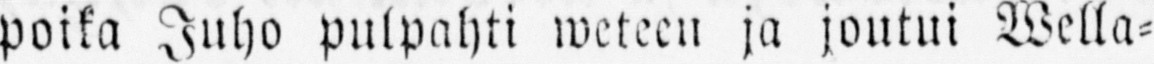poika Juho pulpahti weteen ja joutui Wella-
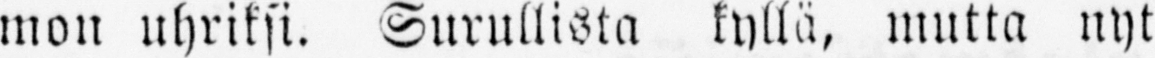mon uhriksi. Surullista kyllä, mutta nyt
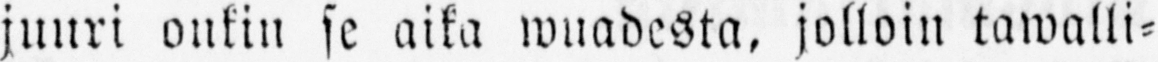juuri onkin se aika wuadesta, jolloin tawalli-
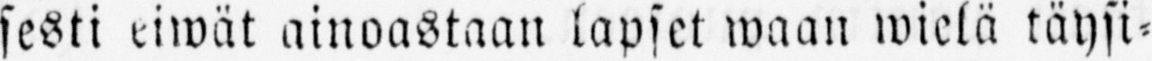sesti eiwät ainoastaan lapset waan wielä täysi-
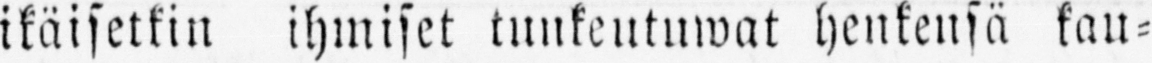ikäisetkin ihmiset tunkeutuwat henkensä kau-
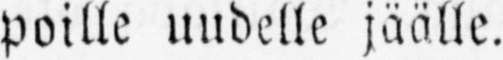poille uudelle jäälle.
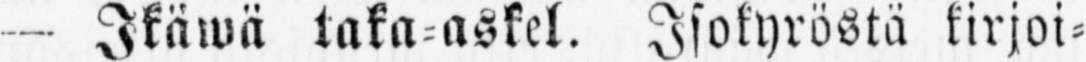— Ikäwä taka-askel. Isokyröstä kirjoi-
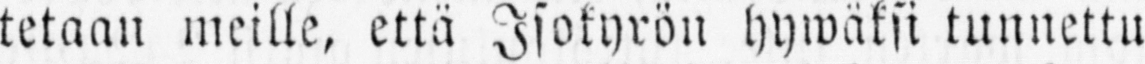tetaan meille, että Isokyrön hywäksi tunnettu
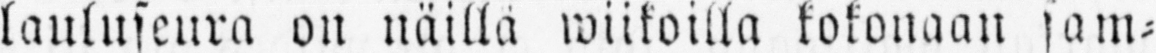lauluseura on näillä wiikoilla kokonaan sam-
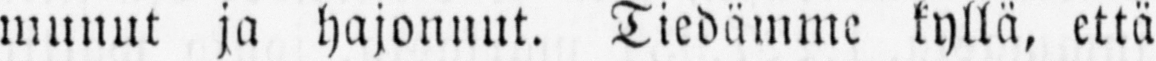munut ja hajonnut. Tiedämme kyllä, että
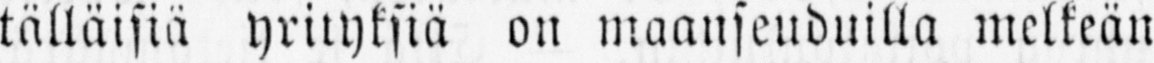tälläisiä yrityksiä on maanseuduilla melkeän
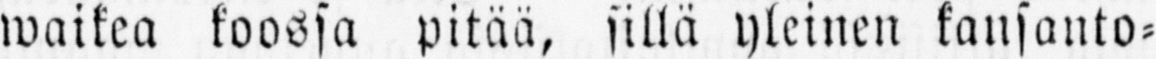waikea koossa pitää, sillä yleinen kansanto-
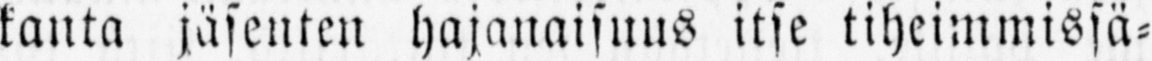kanta jäsenten hajanaisuus itse tiheimmissä-
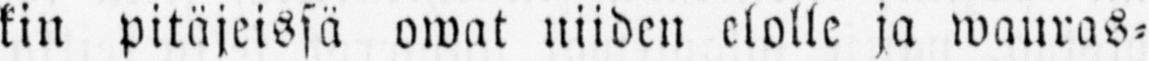kin pitäjeissä owat niiden elolle ja wauras-
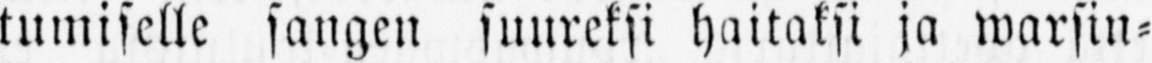tumiselle sangen suureksi haitaksi ja warsin-
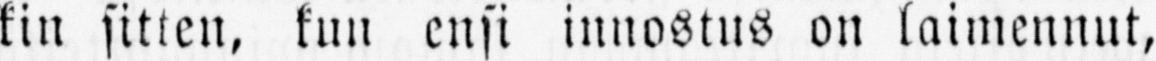kin sitten, kun ensi innostus on laimennut,
